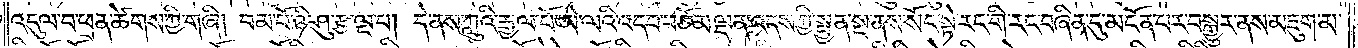འདུལ་བ་ཕྲན་ཚེགས་ཀྱི་གཞི། བམ་པོ་ཉི་ཤུ་རྩ་ལྔ་པ། དེ་ནས་ཀླུའི་རྒྱལ་པོ་ཨེ་ལའི་འདབ་བཅོམ་ལྡན་འདས་ཀྱི་སྤྱན་སྔ་ནས་སོང་སྟེ་རང་གི་རང་བཞིན་དུ་མངོན་པར་བསྒྱུར་ནས་མཇུག་མ་
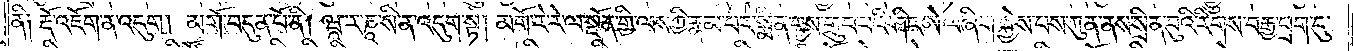ནི༑ རྡོ་འཇོག་ན་འདུག །མགོ་བདུན་པོ་ནི། ཝཱ་ར་ཎཱ་སི་ན་འདུག་སྟེ། མགོ་རེ་རེ་ལ་སྔོན་གྱི་ལས་ཀྱི་རྣམ་པར་སྨིན་པས་གྲུབ་པའི་ཤིང་ཨེ་ལ་ཞིག་སྐྱེས་པས་ཀུན་ནས་སྲིན་བུའི་རིགས་བརྒྱ་ཕྲག་དུ་
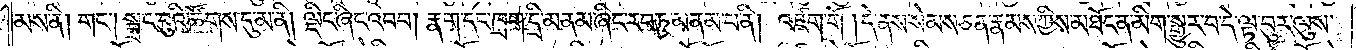མས་ནི། གང༌། སྦྲང་བུའི་ཚོགས་དུ་མ་ནི། ལྡིང་ཞིང་འབབ། རྣག་དང་ཁྲག་དྲི་མནམ་ཞིང་རབ་ཏུ་མནམ་པ་ནི། འཛག་གོ །དེ་ནས་སེམས་ཅན་རྣམས་ཀྱིས་མཐོང་ན་མིག་སྒྱུར་བ་དེ་ལྟ་བུར་ལུས་
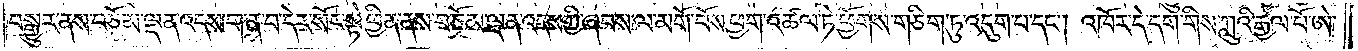བསྒྱུར་ནས་བཅོམ་ལྡན་འདས་ག་ན་བ་དེར་སོང་སྟེ་ཕྱིན་ནས་བཅོམ་ལྡན་འདས་ཀྱི་ཞབས་ལ་མགོ་བོས་ཕྱག་འཚལ་ཏེ་ཕྱོགས་གཅིག་ཏུ་འདུག་པ་དང༌། འཁོར་དེ་དག་གིས་ཀླུའི་རྒྱལ་པོ་ཨེ་
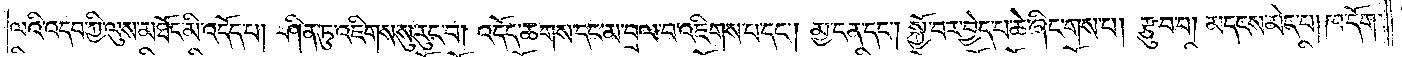ལའི་འདབ་ཀྱི་ལུས་མཐོང་མི་འདོད་པ། ཤིན་ཏུ་འཇིགས་སུ་རུང་བ། འདོད་ཆགས་དང་མ་བྲལ་བ་འཇིགས་པ་དང༌། མྱ་ངན་དང༌། སྐྱོ་བར་བྱེད་པ་ཆེ་ཞིང་གས་པ། རྩུབ་པ། མདངས་མེད་པ། ཁ་དོག་
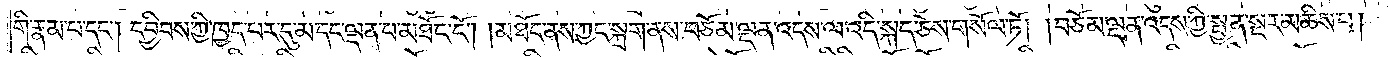གི་རྣམ་པ་དང༌། དབྱིབས་ཀྱི་ཁྱད་པར་དུ་མ་དང་ལྡན་པ་མཐོང་ངོ༌། །མཐོང་ནས་ཀྱང་སྐྲག་ནས་བཅོམ་ལྡན་འདས་ལ་འདི་སྐད་ཅེས་གསོལ་ཏོ། །བཅོམ་ལྡན་འདས་ཀྱི་སྤྱན་སྔར་མཆིས་པ།
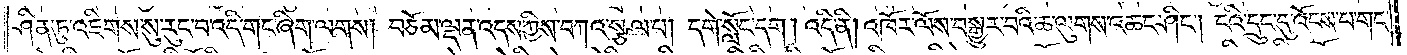ཤིན་ཏུ་འཇིགས་སུ་རུང་བ་འདི་གང་ཞིག་ལགས། བཅོམ་ལྡན་འདས་ཀྱིས་བཀའ་སྩལ་པ། དགེ་སློང་དག །འདི་ནི། འཁོར་ལོས་བསྒྱུར་བའི་ཆ་ལུགས་འཆང་ཤིང༌། ངའི་དྲུང་དུ་འོངས་པ་གང་
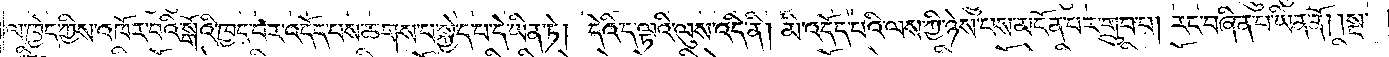ལ་ཁྱེད་ཀྱིས་འཁོར་བའི་སྒོའི་ཁྱད་པར་འདོད་པས་ཆགས་པ་སྐྱེད་པ་དེ་ཡིན་ཏེ། དེའི་ད་ལྟའི་ལུས་འདི་ནི། མི་འདོད་པའི་ལས་ཀྱི་ཉེས་པས་མངོན་པར་གྲུབ་པ། རང་བཞིན་པ་ཡིན་ནོ། །སྔ་
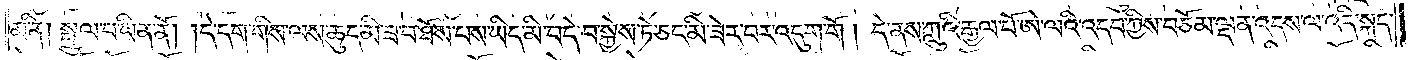མ་ནི། སྤྲུལ་པ་ཡིན་ནོ། །དེ་དག་གིས་ལས་ཆུད་མི་ཟ་བ་ཐོས་པས་ཡིད་མི་བདེ་བ་སྐྱེས་ཏེ་ཅང་མི་ཟེར་བར་འདུག་གོ། །དེ་ནས་ཀླུའི་རྒྱལ་པོ་ཨེ་ལའི་འདབ་ཀྱིས་བཅོམ་ལྡན་འདས་ལ་འདི་སྐད་
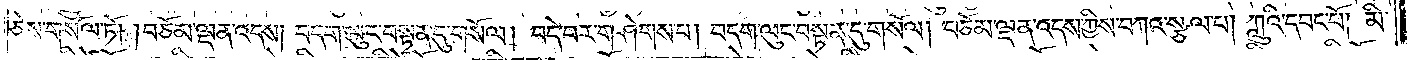ཅེས་གསོལ་ཏོ། །བཅོམ་ལྡན་འདས། བདག་ལུང་བསྟན་དུ་གསོལ། བདེ་བར་གཤེགས་པ། བདག་ལུང་བསྟན་དུ་གསོལ། བཅོམ་ལྡན་འདས་ཀྱིས་བཀའ་སྩལ་པ། ཀླུའི་དབང་པོ། མི་
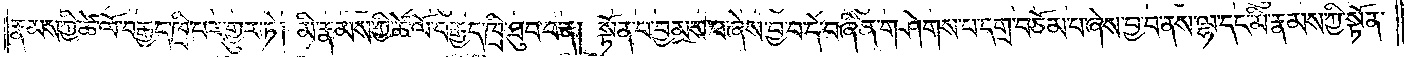རྣམས་ཀྱི་ཚེ་ལོ་བརྒྱད་ཁྲི་པར་གྱུར་ཏེ། མི་རྣམས་ཀྱི་ཚེ་ལོ་བརྒྱད་ཁྲི་ཐུབ་པ་ན། སྟོན་པ་བྱམས་པ་ཞེས་བྱ་བ་དེ་བཞིན་གཤེགས་པ་དགྲ་བཅོམ་པ་ཞེས་བྱ་བ་ནས་ལྷ་དང་མི་རྣམས་ཀྱི་སྟོན་
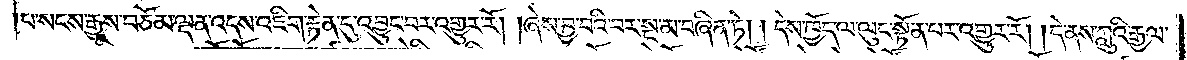པ་སངས་རྒྱས་བཅོམ་ལྡན་འདས་འཇིག་རྟེན་དུ་འབྱུང་བར་འགྱུར་རོ། །ཞེས་བྱ་བའི་བར་སྔ་མ་བཞིན་ཏེ། དེས་ཁྱོད་ལ་ལུང་སྟོན་པར་འགྱུར་རོ། །དེ་ནས་ཀླུའི་རྒྱལ་
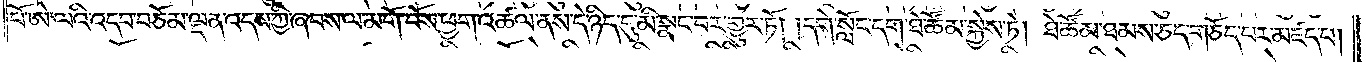པོ་ཨེ་ལའི་འདབ་བཅོམ་ལྡན་འདས་ཀྱི་ཞབས་ལ་མགོ་བོས་ཕྱག་འཚལ་ནས་དེ་ཉིད་དུ་མི་སྣང་བར་གྱུར་ཏོ། །དགེ་སློང་དག་ཐེ་ཚོམ་སྐྱེས་ཏེ། ཐེ་ཚོམ་ཐམས་ཅད་གཅོད་པར་མཛད་པ།
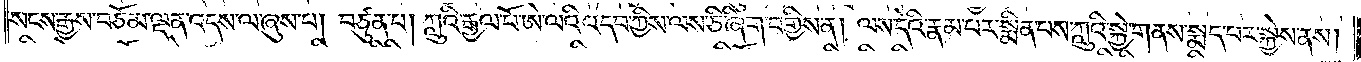སངས་རྒྱས་བཅོམ་ལྡན་འདས་ལ་ཞུས་པ། བཙུན་པ། ཀླུའི་རྒྱལ་པོ་ཨེ་ལའི་འདབ་ཀྱིས་ལས་ཅི་ཞིག་བགྱིས་ན། ལས་དེའི་རྣམ་པར་སྨིན་པས་ཀླུའི་སྐྱེ་གནས་སྨད་པར་སྐྱེས་ནས།
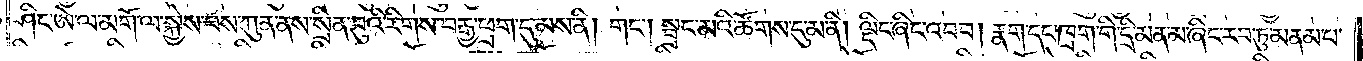ཤིང་ཨེ་ལ་མགོ་ལ་སྐྱེས་པས་ཀུན་ནས་སྲིན་བུའི་རིགས་བརྒྱ་ཕྲག་དུ་མས་ནི། གང༌། སྦྲང་མའི་ཚོགས་དུ་མ་ནི། ལྡིང་ཞིང་འབབ། རྣག་དང་ཁྲག་གི་དྲི་མནམ་ཞིང་རབ་ཏུ་མནམ་པ་
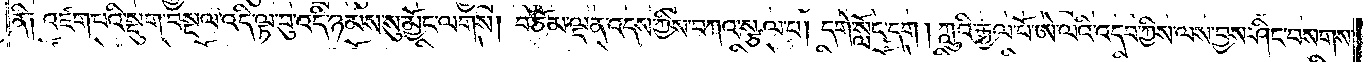ནི༑ འཛག་པའི་སྡུག་བསྔལ་འདི་ལྟ་བུ་འདི་ཉམས་སུ་མྱོང་ལགས། བཅོམ་ལྡན་འདས་ཀྱིས་བཀའ་སྩལ་པ། དགེ་སློང་དག །ཀླུའི་རྒྱལ་པོ་ཨེ་ལའི་འདབ་ཀྱིས་ལས་བྱས་ཤིང་བསགས་
